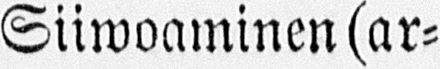Siiwoaminen (ar-
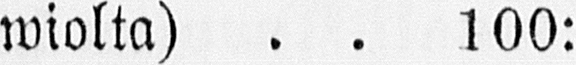wiolta) 100:
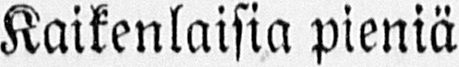Kaikenlaisia pieniä
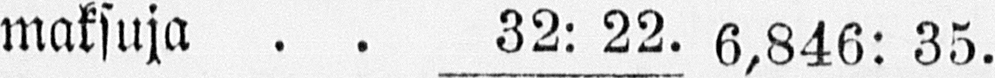maksuja 32: 22. 6,846: 35.
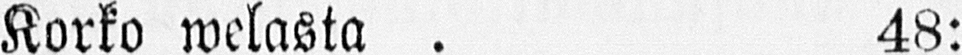Korko welasta 48:
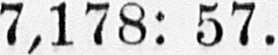7,178: 57.
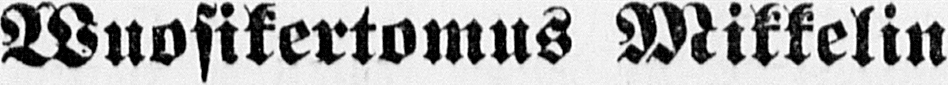Wuosikertomus Mikkelin
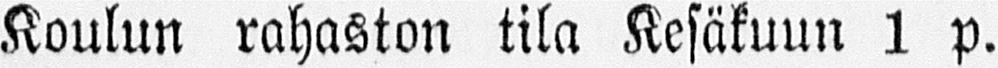Koulun rahaston tila Kesäkuun 1 p.
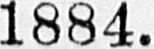1884.
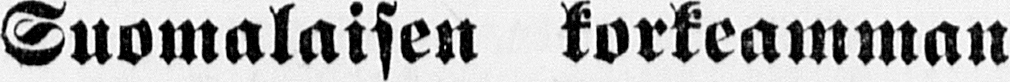Suomalaisen korkeamman
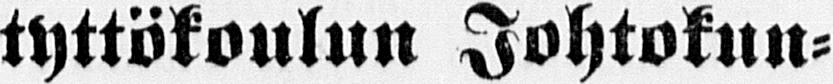tyttökoulun Johtokun-
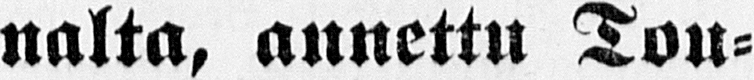nalta, annettu Tou-
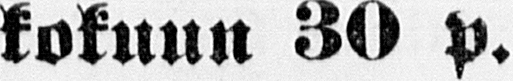kokuun 30 p.
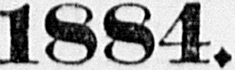1884.
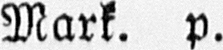Mark. p.
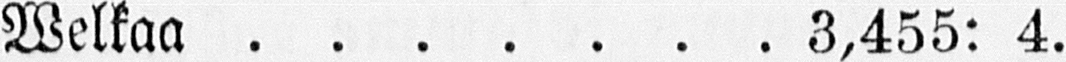Welkaa 3,455: 4.
